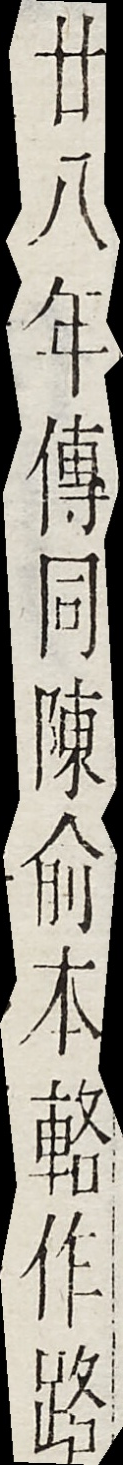廿八年傳同陳俞本輅作路
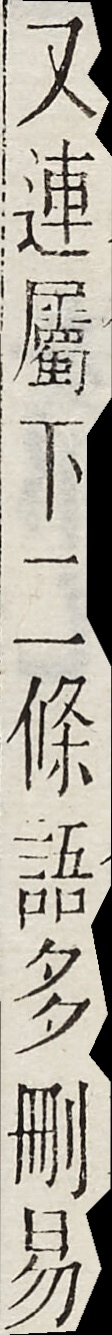又連屬下二條語多刪易
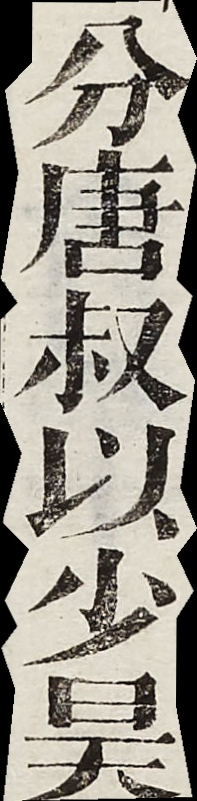分唐叔以少昊
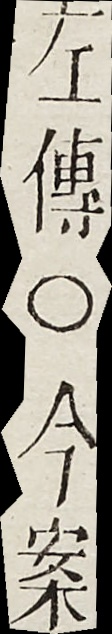左傳○今案
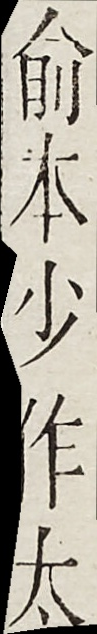俞本少作太
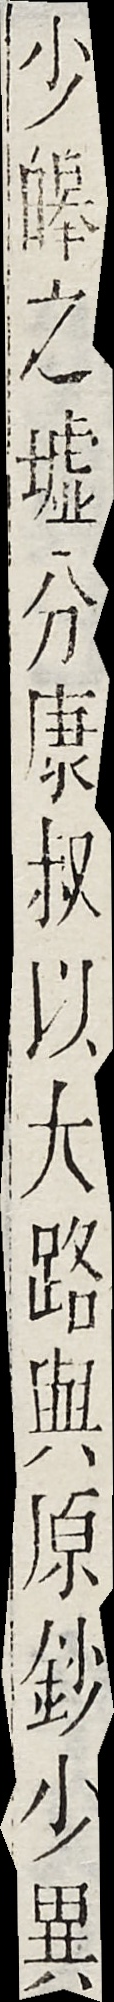少皞之墟分康叔以大路與原鈔少異
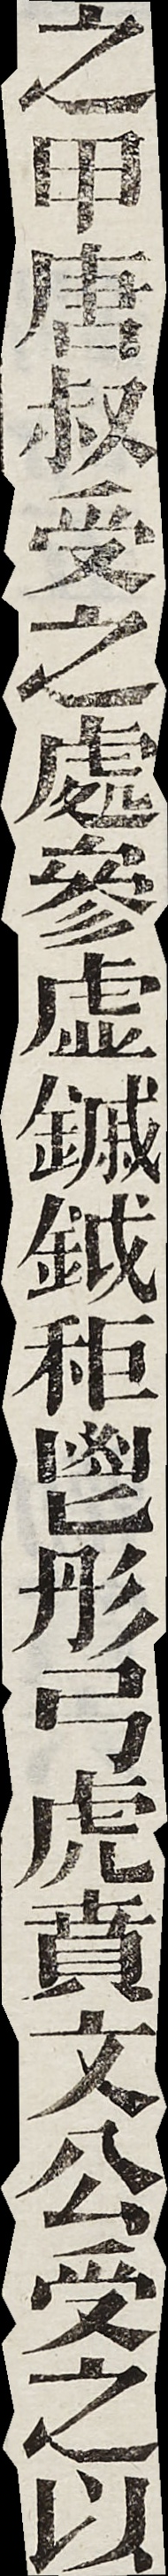之甲唐叔受之處參虛鏚鉞秬鬯彤弓虎賁文公受之以
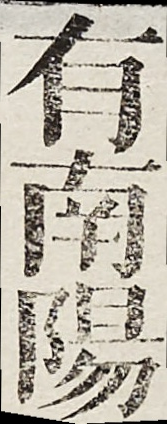有南陽
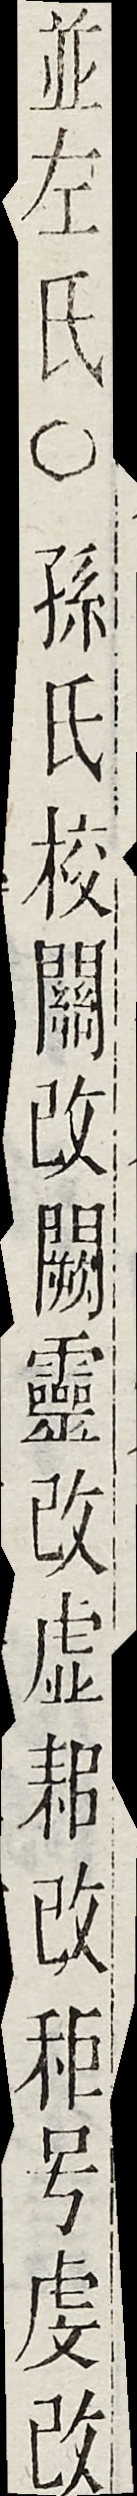並左氏○孫氏校關改闕靈改虛耜改秬号虔改
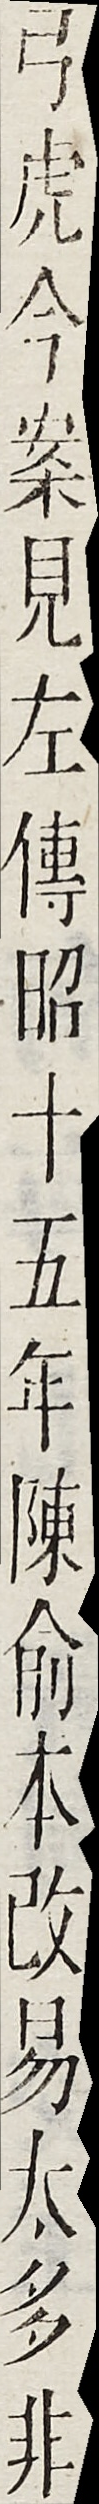弓虎今案見左傳昭十五年陳俞本改易太多非
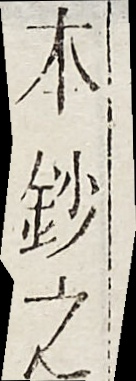本鈔之
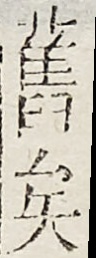舊矣
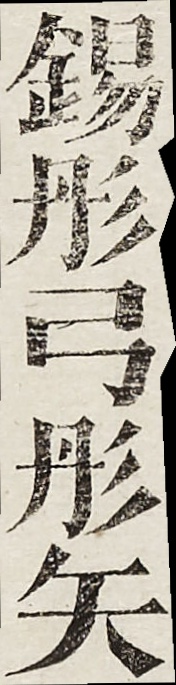錫彤弓彤矢
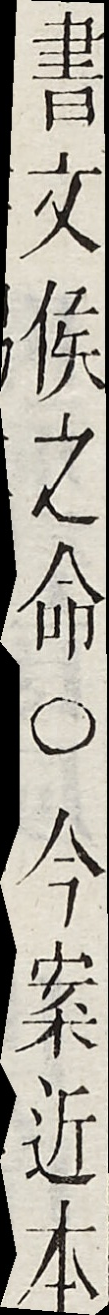書文侯之命○今案近本
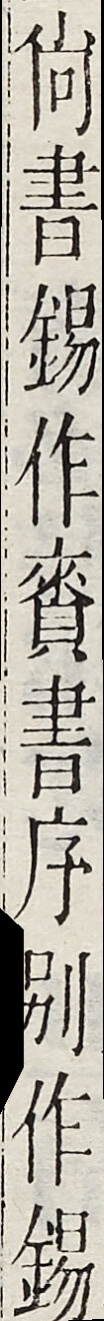尚書錫作賚書序別作錫
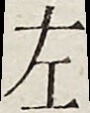左
